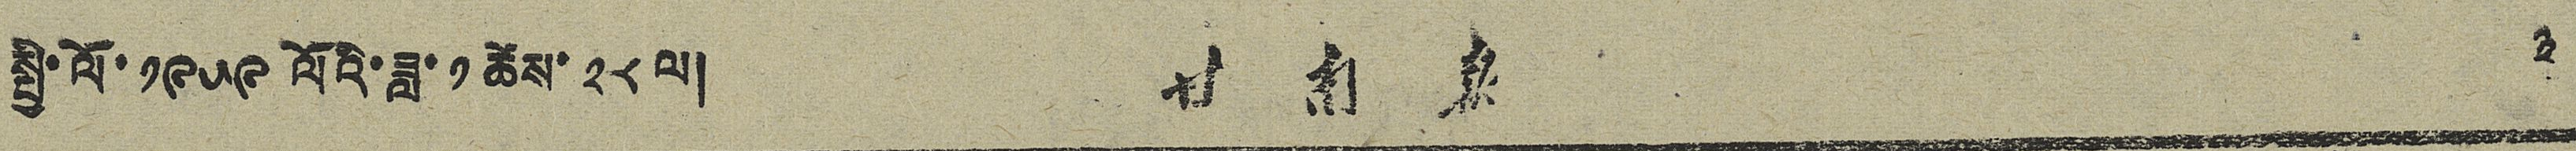སྤྱི་ལོ་ ༡༩༥༩ ལོའི་ཟླ་ ༡ ཚེས་ ༢༨ ལ། 甘 南 報 ༣
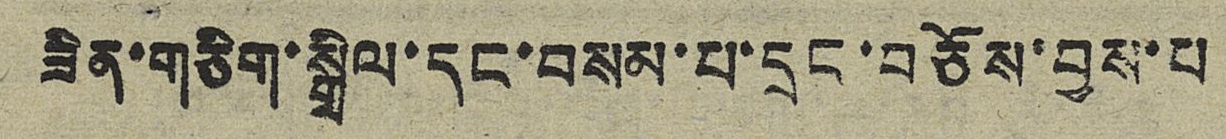ཟིན་གཅིག་སྒྲིལ་དང་བསམ་པ་དྲང་བཅོས་བྱས་པ
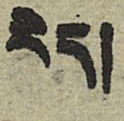རེད།
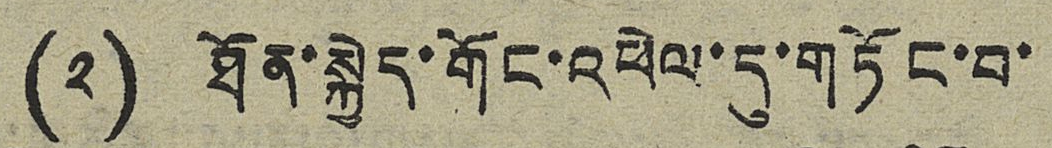(༢) ཐོན་སྐྱེད་གོང་འཕེལ་དུ་གཏོང་བ་
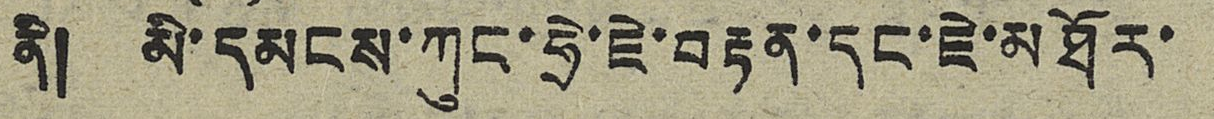ནི། མི་དམངས་ཀུང་ཧྲེ་ཇེ་བརྟན་དང་ཇེ་མཐོར་
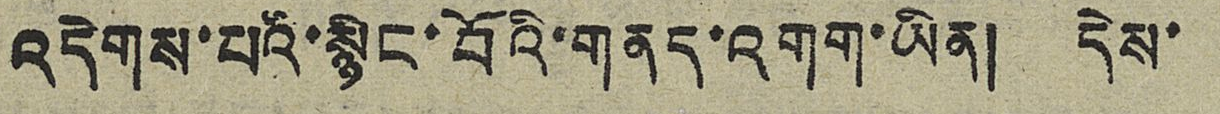འདེགས་པའི་སྙིང་བོའི་གནད་འགག་ཡིན། དེས་
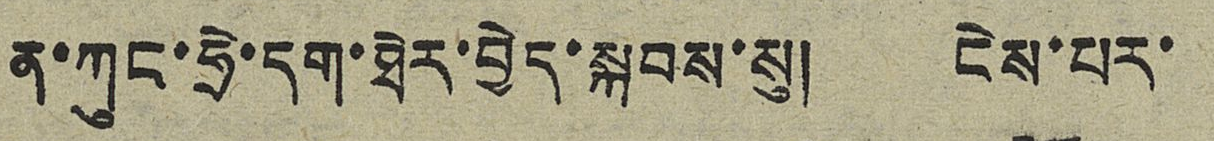ན་ཀུང་ཧྲེ་དག་ཐེར་བྱེད་སྐབས་སུ། ངེས་པར་
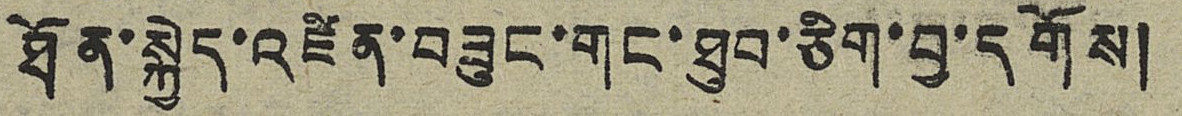ཐོན་སྐྱེད་འཛིན་བཟུང་གང་ཐུབ་ཅིག་བྱ་དགོས།
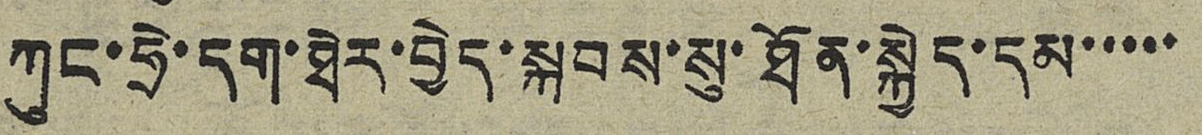ཀུང་ཧྲེ་དག་ཐེར་བྱེད་སྐབས་སུ་ཐོན་སྐྱེད་དམ་་་་་
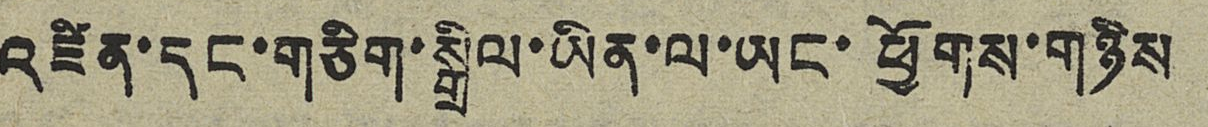འཛིན་དང་གཅིག་སྒྲིལ་ཡིན་ལ་ཡང་ཕྱོགས་གཉིས
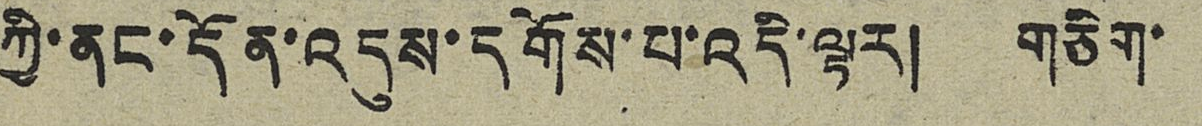ཀྱི་ནང་དོན་འདུས་དགོས་པ་འདི་ལྟར། གཅིག་
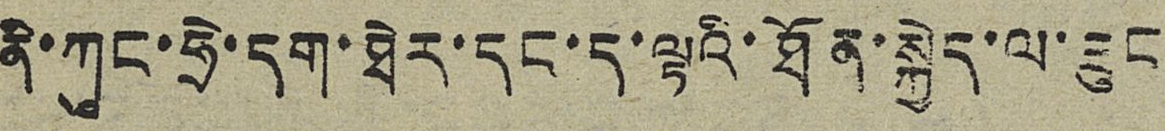ནི་ཀུང་ཧྲེ་དག་ཐེར་དང་ད་ལྟའི་ཐོན་སྐྱེད་ལ་ཟུང
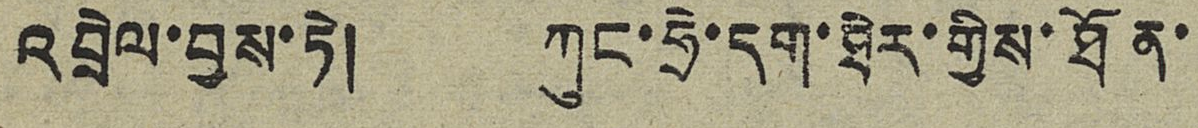འབྲེལ་བྱས་ཏེ། ཀུང་ཧྲེ་དག་ཐེར་གྱིས་ཐོན་
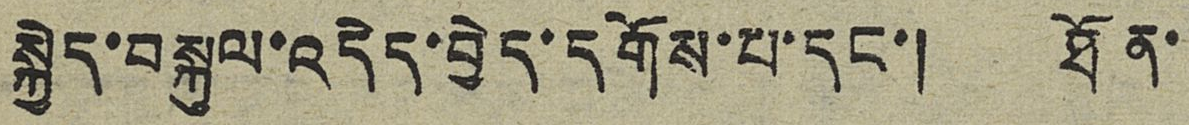སྐྱེད་བསྐུལ་འདེད་བྱེད་དགོས་པ་དང་། ཐོན་
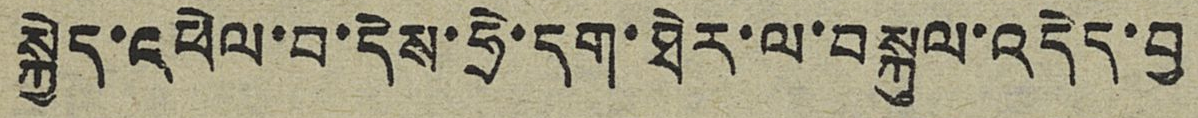སྐྱེད་འཕེལ་བ་དེས་ཧྲེ་དག་ཐེར་ལ་བསྐུལ་འདེད་བྱ
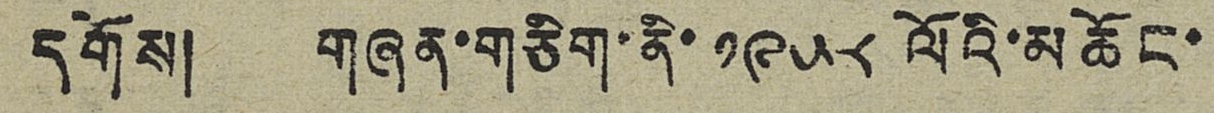དགོས། གཞན་གཅིག་ནི་ ༡༩༥༨ ལོའི་མཆོང་
